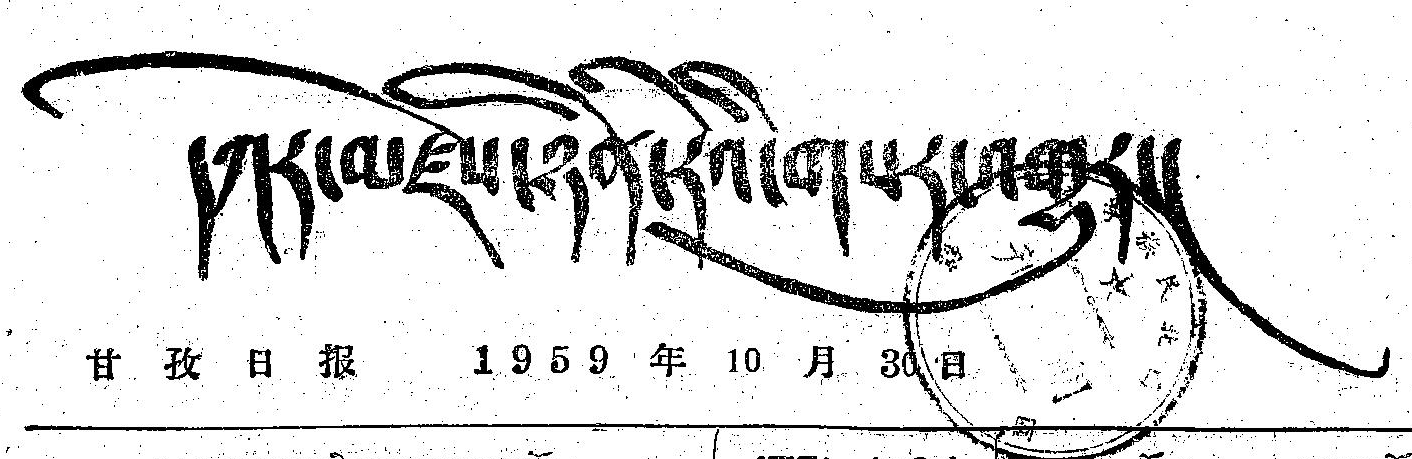དཀར་མཛེས་ཉིན་རེའི་གསར་འགྱུར།
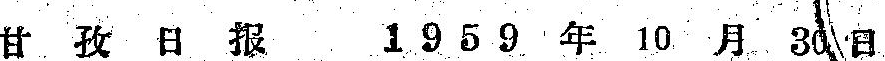甘 孜 日 报 1 9 5 9 年 10 月 30 日
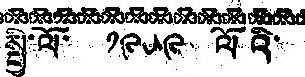སྤྱི་ལོ་ ༡༩༥༩ ལོའི་
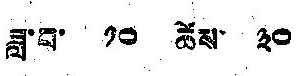ཟླ་བ་ ༡༠ ཚེས ༣༠
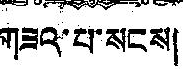གཟའ་པ་སངས།
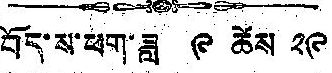བོད་ས་ཕག་ཟླ ༩ ཚེས ༢༩
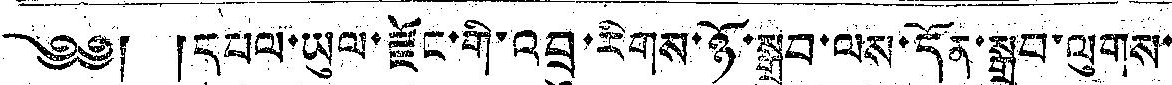༄༅། །དཔལ་ཡུལ་རྫོང་གི་འབྲུ་རིགས་ཉོ་སྒྲུབ་ལས་དོན་སྒྲུབ་ལུགས་
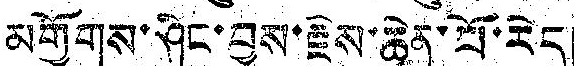མགྱོགས་ཤིང་བྱས་རྗེས་ཆེན་པོ་རེད།
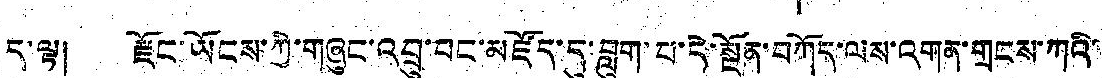ད་ལྟ། རྫོང་ཡོངས་ཀྱི་གཞུང་འབྲུ་བང་མཛོད་དུ་བླུག་པ་ཏེ་སྔོན་བཀོད་ལས་འགན་གྲངས་ཀའི་
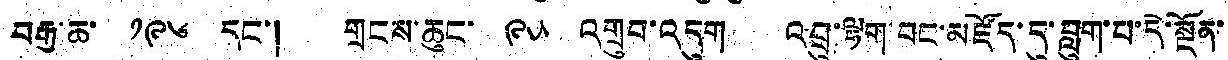བརྒྱ་ཆ་ ༡༩༦ དང་། གྲངས་ཆུང་ ༩༥ འགྲུབ་འདུག འབྲུ་ལྷག་བང་མཛོད་དུ་བླུག་པ་དེ་སྔོན་
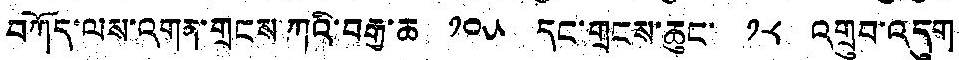བཀོད་ལས་འགན་གྲངས་ཀའི་བརྒྱ་ཆ ༡༠༥ དང་གྲངས་ཆུང་ ༡༨ འགྲུབ་འདུག
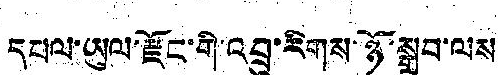དཔལ་ཡུལ་རྫོང་གི་འབྲུ་རིགས་ཉོ་སྒྲུབ་ལས
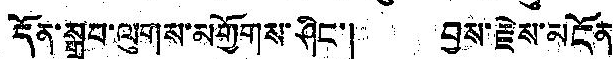དོན་སྒྲུབ་ལུགས་མགྱོགས་ཤིང་། བྱས་རྗེས་མངོན་
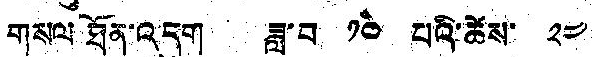གསལ ཐོན་འདུག ཟླ་བ ༡༠ པའི་ཚེས་ ༢༤
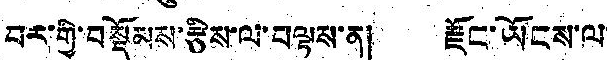བར་གྱི་བསྡོམས་རྩིས་ལ་བལྟས་ན། རྗོང་ཡོངས་ལ་
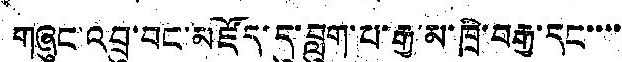གཞུང་འབྲུ་བང་མཛོད་དུ་བླུག་པ་རྒྱ་མ་ཁྲི་བརྒྱ་དང་་་་
